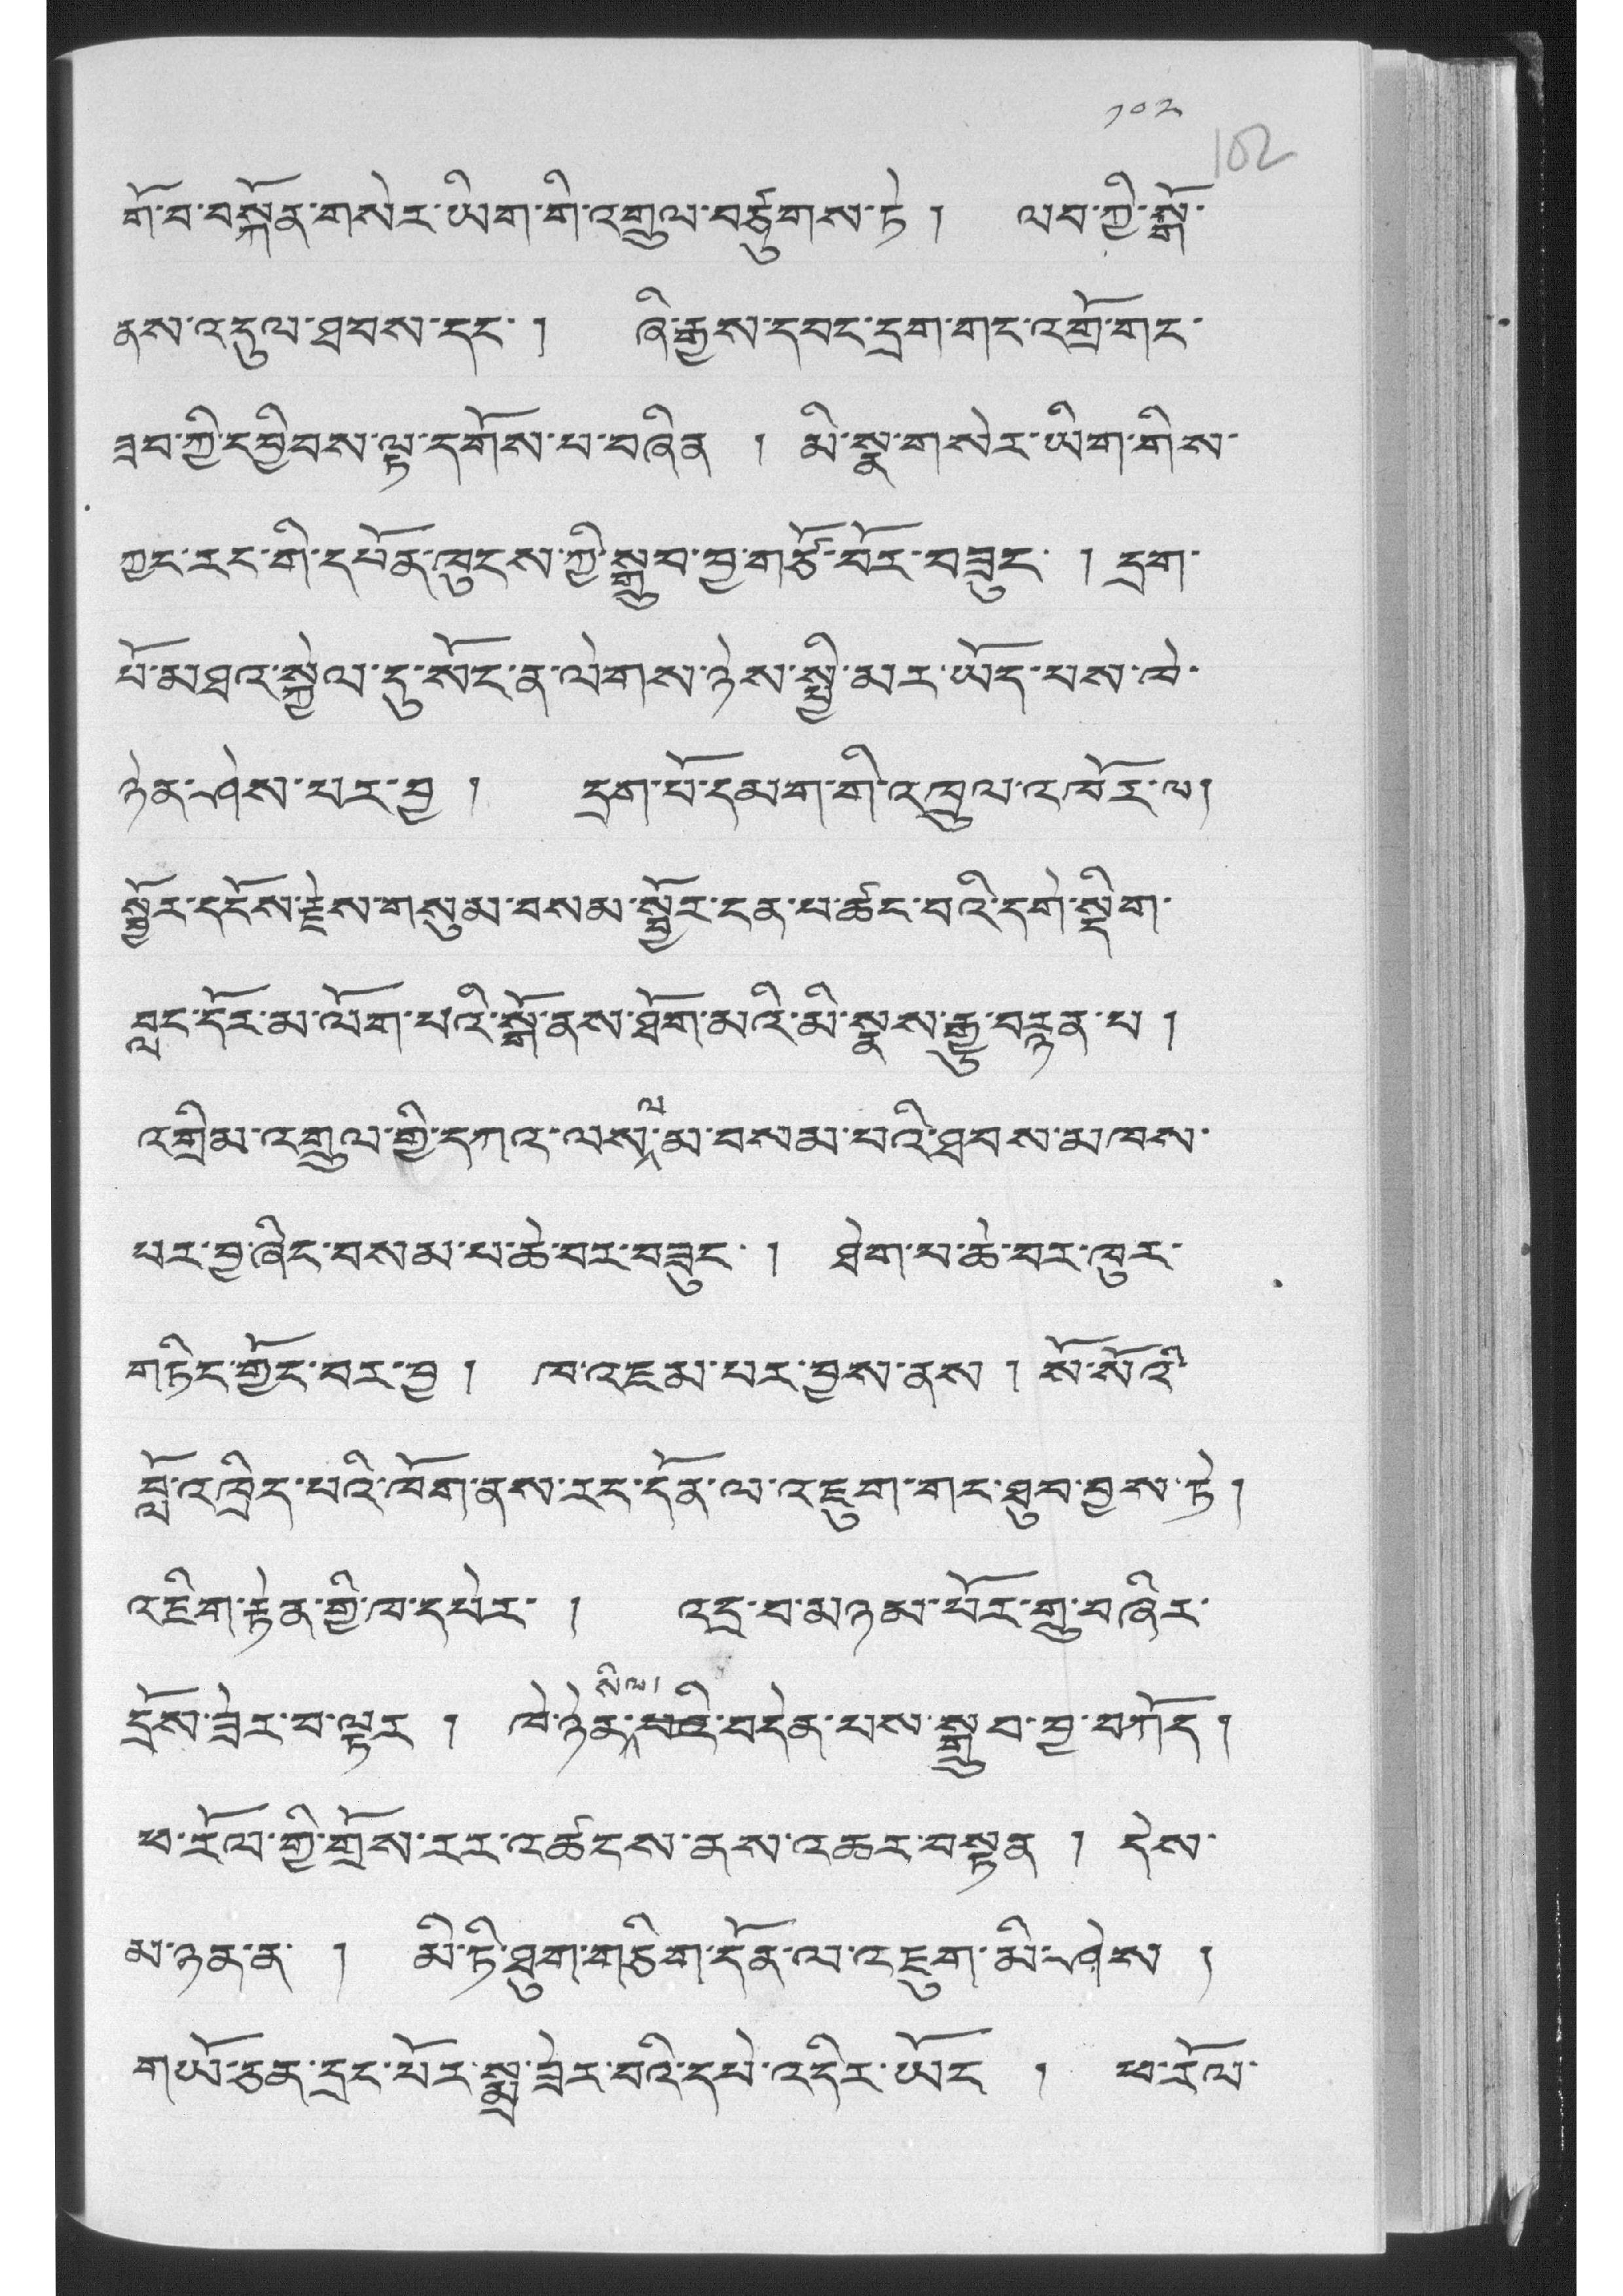༡༠༢
གོ་བ་བསྐོན་གསེར་ཡིག་གི་འགྲུལ་བཙུགས་ཏེ ། ལབ་ཀྱི་སྒོ་
ནས་འདུལ་ཐབས་དང་། ཞི་རྒྱས་དབང་དྲག་གང་འགྲོ་གང་
ཟབ་ཀྱི་དབྱིབས་ལྟ་དགོས་པ་བཞིན ། མི་སྣ་གསེར་ཡིག་གིས་
ཀྱང་རང་གི་དཔོན་ཁུངས་ཀྱི་སྒྲུབ་བྱ་གཙོ་བོར་བཟུང་ ། དྲུག་
པོ་མཐའ་སྐྱེལ་དུ་སང་ན་ལེགས་ཉེས་སྤྱི་མར་ཡོད་པས་ཁེ་
ཉེན་ཤེས་པར་བྱ ། དྲག་པོ་དམག་གི་འཁྲུལ་འཁོར་ལ།
སྦྱོར་དངོས་རྗེས་གསུམ་བསམ་སྦྱོར་ངན་པ་ཚང་བའི་དགེ་སྡིག་
བླང་དོར་མ་ལོག་པའི་སྒོ་ནས་ཐོག་མའི་མི་སྣས་རྒྱུ་བརྙན་པ །
འགྲིམ་འགྲུལ་གྱི་དཀའ་ལས་ལ་མ་བསམ་པའི་ཐབས་མཁས་
པར་བྱ་ཞིང་བསམ་པ་ཆེ་བར་བཟུང་ ། ཐེག་པ་ཆེ་བར་ཁུར་
གཏིང་གྱོང་བར་བྱ ། ཁ་འཇམ་བར་བྱས་ནས །སོ་སོའི་
བློ་འཁྲིད་པའི་ཁོག་ནས་རང་དོན་ལ་འཇུག་གང་ཐུབ་བྱས་ཏེ །
འཇིག་རྟེན་གྱི་ཁ་དཔེར་ ། འདྲ་བ་མཉམ་པོར་གྲུ་བཞིར་
དྲོས་ཟེར་བ་ལྟར ། ཁེ་ཉེན་སིལ་པའི་བདེན་པས་སྒྲུབ་བྱ་བཀོད།
ཕ་རོལ་གྱི་གྲོས་རར་འཚངས་ནས་འཆར་བསྟན ། དེས་
མ་ཉན་ན་ ། མི་ཏི་ཐུག་གཅིག་དོན་ལ་འཇུག་མི་ཤེས །
གཡོ་ཅན་དྲང་པོར་སྨྲ་ཟེར་བའི་དཔེ་འདིར་ཡོང ། ཕ་རོལ་
